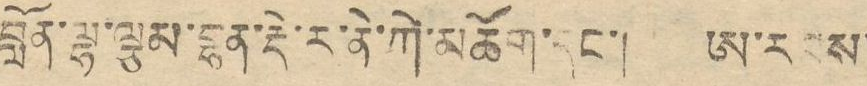བློན་ལྷ་ལྕམ་བྷན་རྡེ་ར་ནེ་ཀེ་མཆོག་དང་། ཨ་རབས་
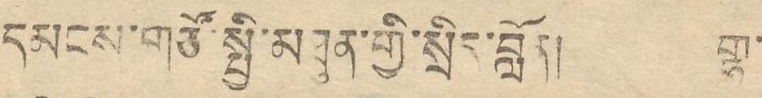དམངས་གཙོ་སྤྱི་མཐུན་གྱི་སྲིད་བློན། གྷ་
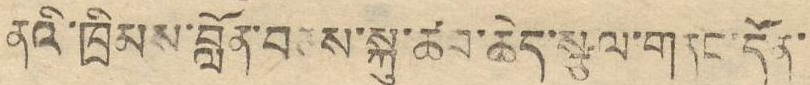ནའི་ཁྲིམས་བློན་བཅས་སྐུ་ཚབ་ཆེད་སྕལ་གནང་དོན་
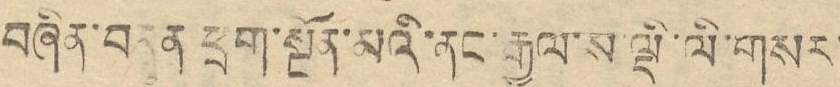བཞིན་བདུན་ཕྲག་སྔོན་མའི་ནང་རྒྱལ་ས་ལྡི་ལི་གསར་
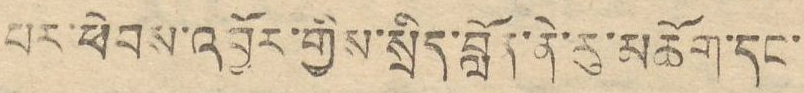པར་ཕེབས་འབྱོར་གྱིས་སྲིད་བློན་ནེ་རུ་མཆོག་དང་
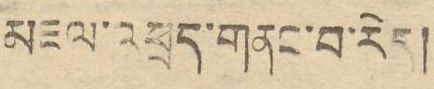མཇལ་འཕྲད་གནང་བ་རེད།
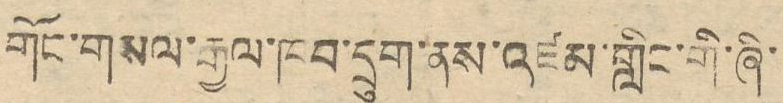གོང་གསལ་རྒྱལ་ཁབ་དྲུག་ནས་འཛམ་གླིང་གི་ཞི་
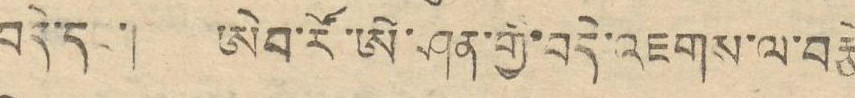བདེ་དང་། ཨེབ་རོ་ཨེ་ཤན་གྱི་བདེ་འཇགས་ལ་བརྩེ
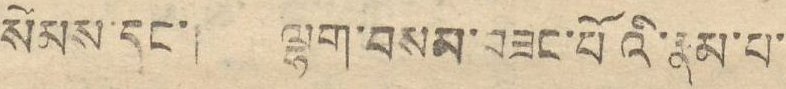སེམས་དང་། ལྷག་བསམ་བཟང་པོའི་རྣམ་པ་
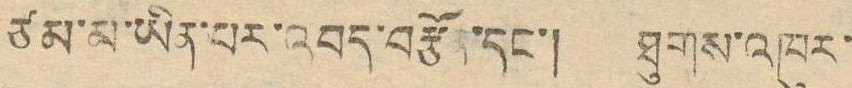ཙམ་མ་ཡིན་པར་འབད་བརྩོན་དང་། ཐུགས་འཁུར་
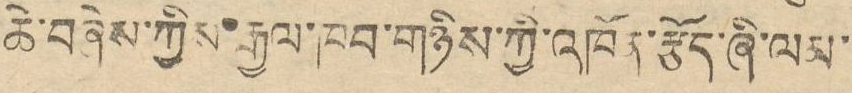ཆེ་བཞེས་ཀྱིས་རྒྱལ་ཁབ་གཉིས་ཀྱི་འཁོན་རྩོད་ཞི་ལམ་
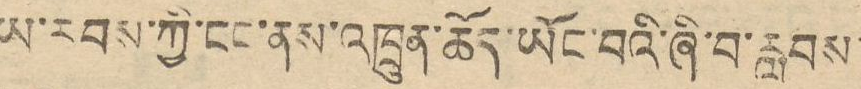ཡ་རབས་ཀྱི་ངང་ནས་འཁྲུན་ཆོད་ཡོང་བའི་ཞི་བ་རླབས་
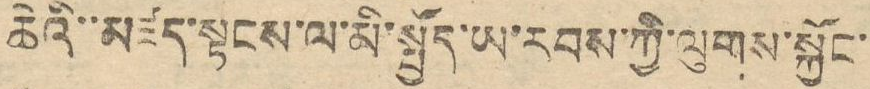ཆེའི་་མཛད་སྟངས་ལ་མི་སྤྱོད་ཡ་རབས་ཀྱི་ལུགས་སྐྱོང་
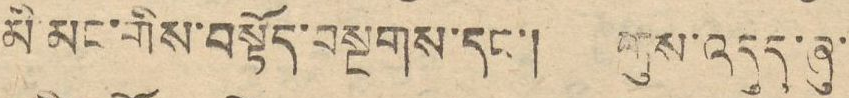མི་མང་གིས་བསྟོད་བསྔགས་དང་། གུས་འདུད་ཞུ་
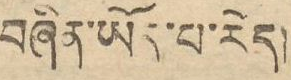བཞིན་ཡོད་པ་རེད།
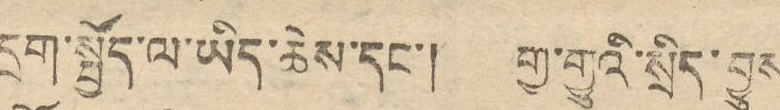དྲག་སྤྱོད་ལ་ཡིད་ཆེས་དང་། གྱ་གྱུའི་སྲིད་བྱུས
